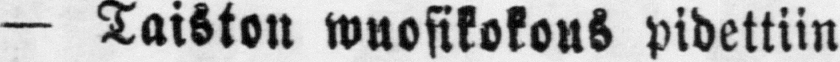— Taiston wuosikokous pidettiin
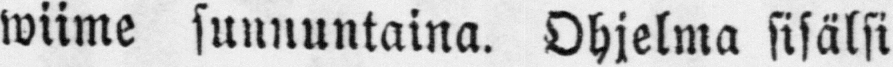wiime sunnuntaina. Ohjelma sisälsi
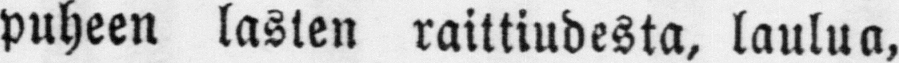puheen lasten raittiudesta, laulua,
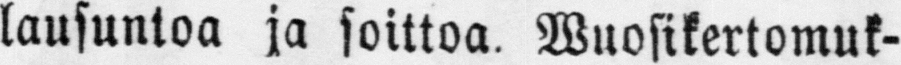lausuntoa ja soittoa. Wuosikertomuk-
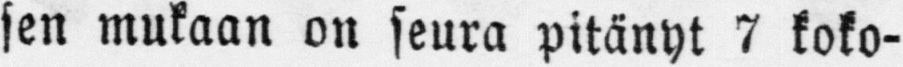sen mukaan on seura pitänyt 7 koko-
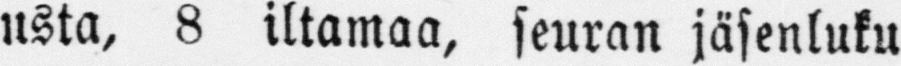usta, 8 iltamaa, seuran jäsenluku
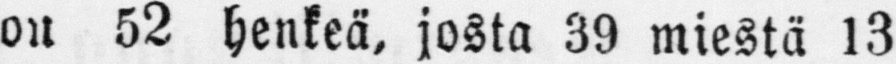on 52 henkeä, josta 39 miestä 13
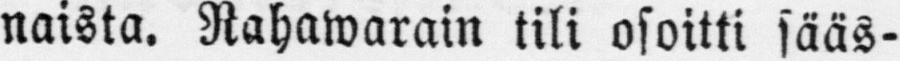naista. Rahawarain tili osoitti sääs-
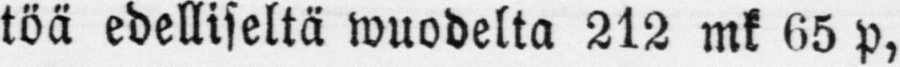töä edelliseltä wuodelta 212 mk 95 p,
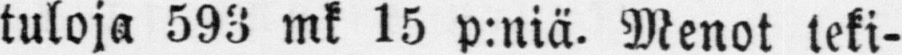tuloja 593 mk 15 p:niä. Menot teki-
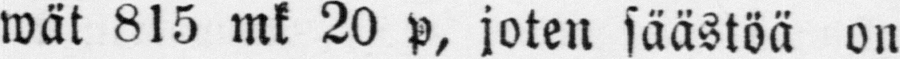wät 815 mk 20 p, joten säästöä on
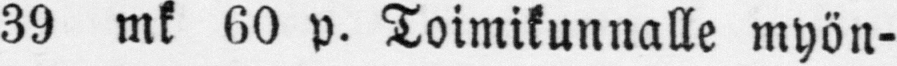39 mk 60 p. Toimikunnalle myön-
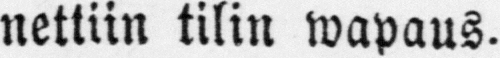nettiin tilin wapaus.
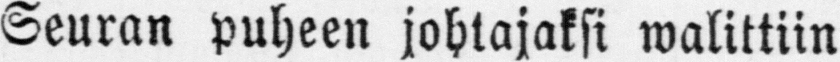Seuran puheen johtajaksi walittiin
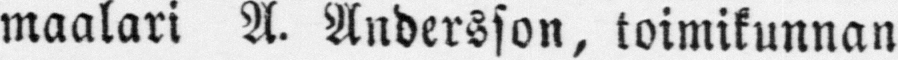maalari A. Andersson, toimikunnan
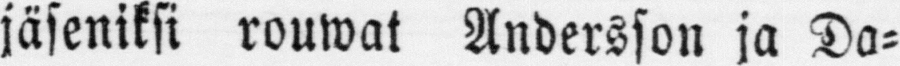jäseniksi rouwat Andersson ja Da-
